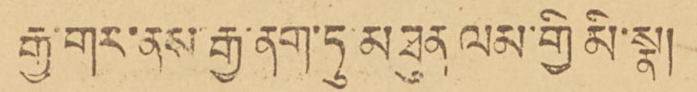རྒྱ་གར་ནས་རྒྱ་ནག་ཏུ་མཐུན ལམ་གྱི མི་སྣ།
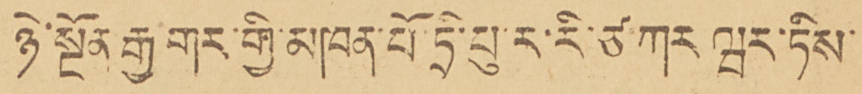ཉེ་སྔོན རྒྱ་གར་གྱི་མཁན་པོ་ཏྲི་པུ་ར་རི་ཙ་ཀར ཝར་ཏིས་
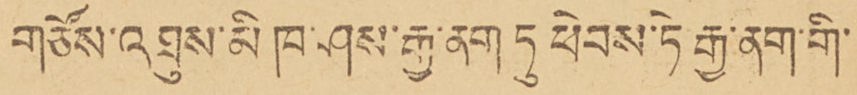གཙོས་འཐུས་མི ཁ་ཤས་རྒྱ་ནག ཏུ ཕེབས་ཏེ་རྒྱ་ནག་གི་
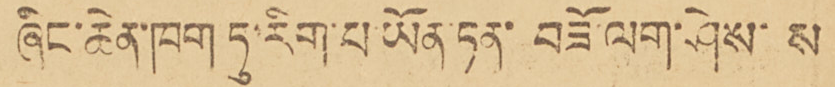ཞིང་ཆེན་ཁག ཏུ་རིག་པ་ཡོན་ཏན་ བཟོ་ལག་ཤེས་ ས
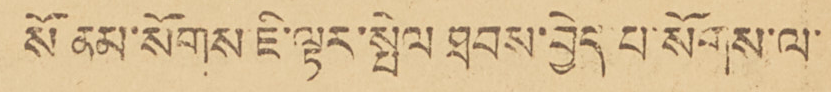སོ ནམ་སོགས་ཇི་ལྟར་སྤེལ ཐབས་བྱེད་པ་སོགས་ལ་
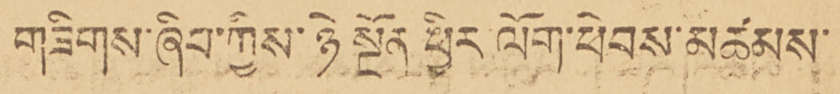གཟིགས་ཞིབ་ཀྱིས་ཉེ སྔོན ཕྱིར ལོག་ཕེབས་མཚམས་
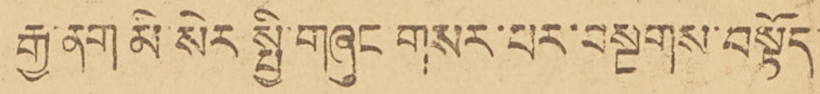རྒྱ་ནག མི་སེར སྤྱི་གཞུང གསར་པར་བསྔགས་བསྟོད་
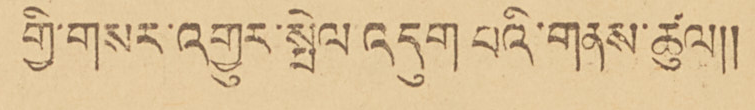གྱི་གསར་འགྱུར་སྤེལ་འདུག པའི་གནས་ཚུལ།།
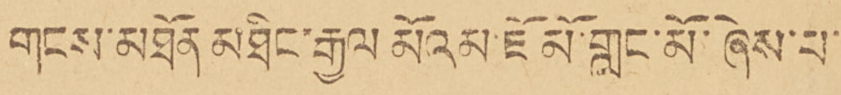གངས་མཐོན མཐིང་རྒྱལ མོའམ་ཇོ མོ་གླང་མོ་ཞེས་པ་
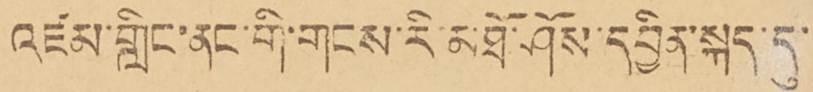འཛམ་གླིང་ནང་གི་གངས་རི་མཐོ་ཤོས་དབྱིན་སྐད་དུ་
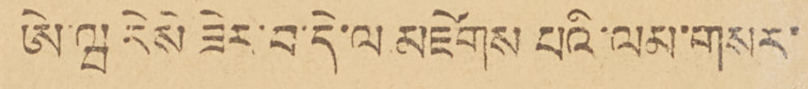ཨེ་ཝ རེསེ ཟེར་བ་དེ་ལ མཛེགས པའི་ལམ་གསར་
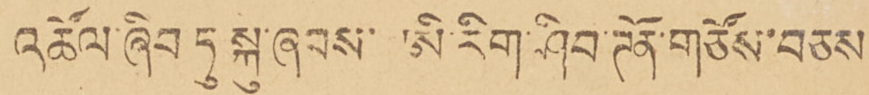འཚོལ་ཞིབ ཏུ སྐུ་ཞབས་ ཨི་རིག་ཤིབ་ཊོན་གཙོས་བཅས
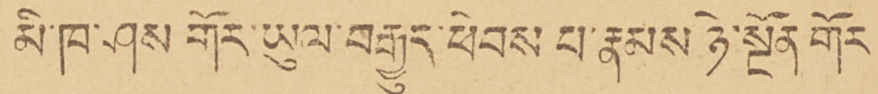མི་ཁ་ཤས གོར་ཡུལ་བརྒྱུད་ཕེབས པ་རྣམས ཉེ་སྔོན གོར་
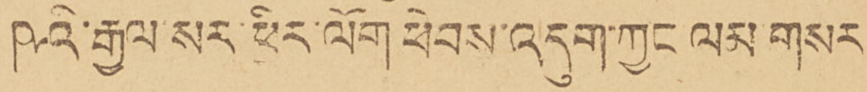ཥའི་རྒྱལ་སར་ཕྱིར་ལོག ཕེབས་འདུག་ཀྱང་ལམ གསར
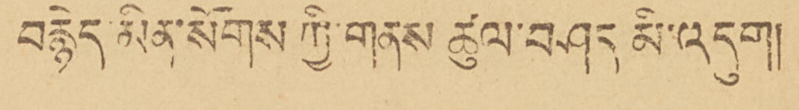བརྙེད་མིན་སོགས ཀྱི་གནས ཚུལ་བཤད མི་འདུག།།
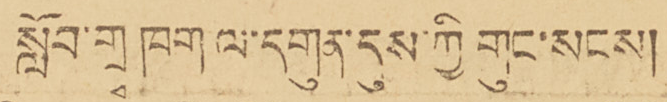སློབ་གྲྭ ཁག ལ་དགུན་དུས་ཀྱི གུང་སངས།
